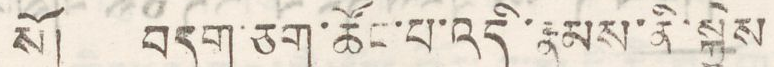སོ། བདག་ཅག་ཚོང་པ་འདི་རྣམས་ནི་སྐྱེས
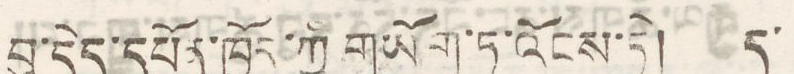བུ་དེད་དཔོན་ཁྱོད་ཀྱི གཡོག་ཏུ་འོངས་ཏེ། ད་
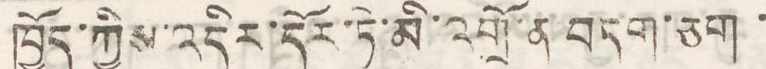ཁྱོད་ཀྱིས་འདིར་དོར་ཏེ་མི་འགྲོ་ན་བདག་ཅག་
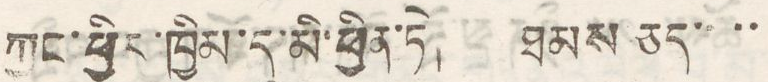ཀྱང་ཕྱིར་ཁྱིམ་དུ་མི་ཕྱིན་ཏེ། ཐམས་ཅད་་་་
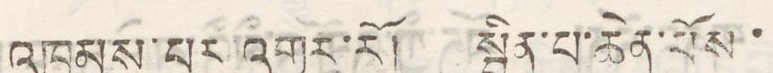འཁྱམས་པར་འགྱུར་རོ། སྦྱིན་པ་ཆེན་པོས་
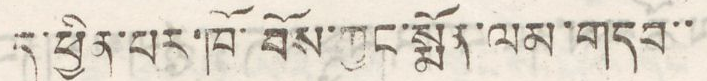དུ་ཕྱིན་པར་ཁོ་བོས་ཀྱང་སྨོན་ལམ་གདབ་་
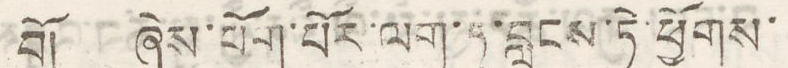བོ། ཞེས་པོག་པོར་ལག་ཏུ་བླངས་ཏེ་ཕྱོགས་
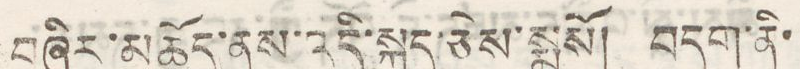བཞིར་མཆོད་ནས་འདི་སྐད་ཅེས་སྨྲསོ། བདག་ནི་
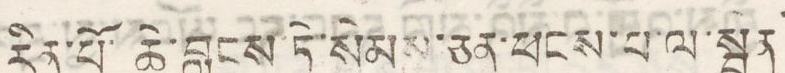རིན་པོ་ཆེ་བ༹ླངས་ཏེ་སེམས་ཅན་ཕངས་པ་ལ་སྦྱན
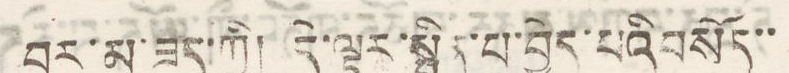བར་མ་ཟད་ཀྱི། དེ་ལྟར་སྦྱིན་པ་བྱེད་པའི བསོད་་་
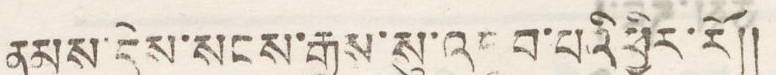ནམས་དེས་སངས་རྒྱས་སུ་འགྲུབ་པའི་ཕྱིར་རོ།།
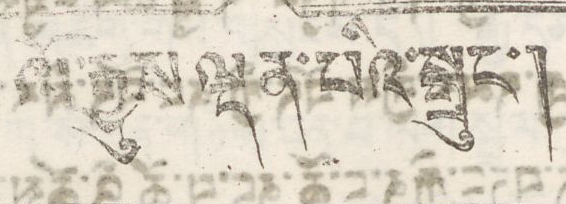ལོ་རྒྱས་ལྡན་པའི་སྒྲུང་།
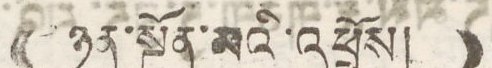(( ཉིན་སྔོན་མའི་འཕྲོས། ))
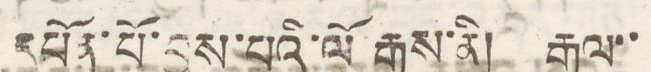དཔོན་པོ་བྱས་པའི་ལོ རྒྱུས་ནི། རྒྱལ་་
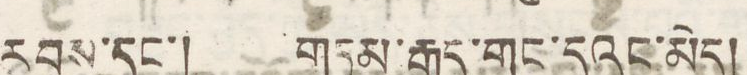རབས་དང་། གཏམ་རྒྱུད་གང་དུའང་མེད།
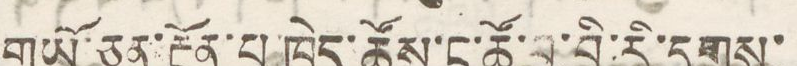གཡོ་ཅན་རྔོན་པ་ཁྱེད་ཚོས་ང་ཚོ་བྱ་བྱི་དྭགས་
